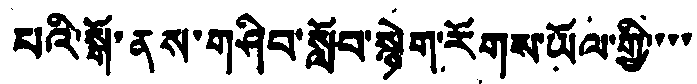པའི་སྒོ་ནས་གཤིབ་སློབ་སྙེག་རོགས་ཡོལ་གྱི་་་་
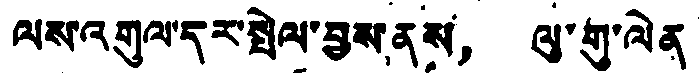ལས་འགུལ་དར་སྤེལ་བྱས་ནས， ལུ་གུ་ལེན་
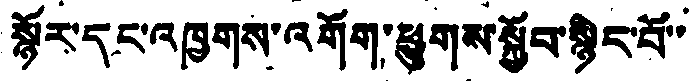སྟོར་དང་འཁྱགས་འགོག་ཕྱུགས་སྐྱོབ་སྙིང་པོ་་་
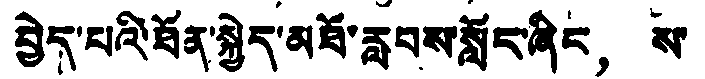བྱེད་པའི་ཐོན་སྐྱེད་མཐོ་རླབས་སློང་ཞིང， ས་
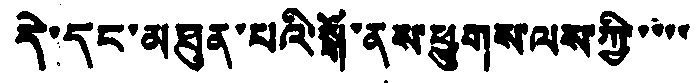དེ་དང་མཐུན་པའི་སྒོ་ནས་ཕྱུགས་ལས་ཀྱི་་་་
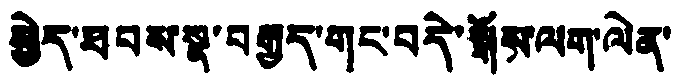སྐྱེད་ཐབས་སྣ་བརྒྱད་གང་བདེ་སྒོས་ལག་ལེན་
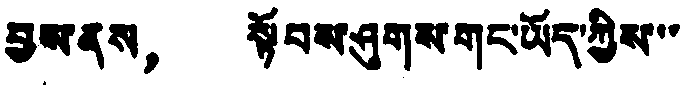བྱས་ནས， སྟོབས་ཤུགས་གང་ཡོད་ཀྱིས་་
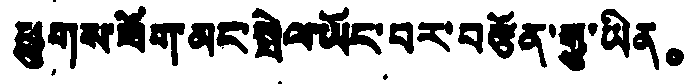ཕྱུགས་ཕོག་མང་སྤེལ་ཡོང་བར་བརྩོན་རྒྱུ་ཡིན。
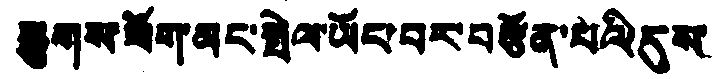ཕྱུགས་ཕོག་མང་སྤེལ་ཡོང་བར་བརྩོན་པའི་དུས
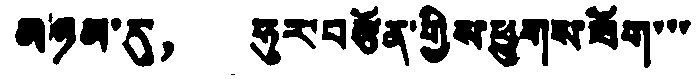མཉམ་དུ。 ཧུར་བརྩོན་གྱིས་ཕྱུགས་ཟོག་་་
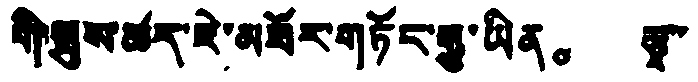གི་སུས་ཚར་རེ་མཐོར་གཏོང་རྒྱུ་ཡིན。 རྩྭ་་
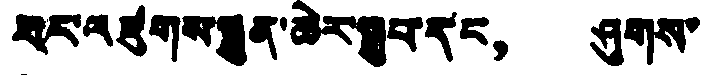ཕར་འཛུགས་སྐྲུན་ཆེར་སྒྲུབ་དང， ཤུགས་
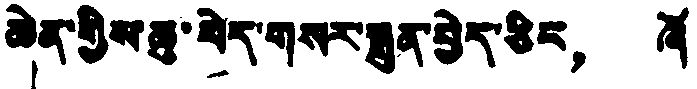ཆེན་གྱིས་ཆུ་བེད་གསར་སྐྲུན་བྱེད་ཅིང， ཞོ་
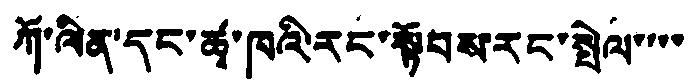ཀོ་ལིན་དང་ཚྭ་ཁའི་རང་སྟོབས་རང་སྤེལ་་་་
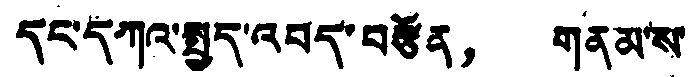དང་དཀའ་སྤྱད་འབད་བརྩོན， གནམ་ས་
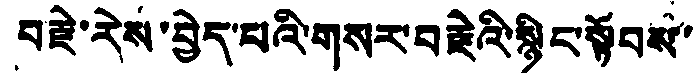བརྗེ་རེས་བྱེད་པའི་གསར་བརྗེའི་སྙིང་སྟོབས་
